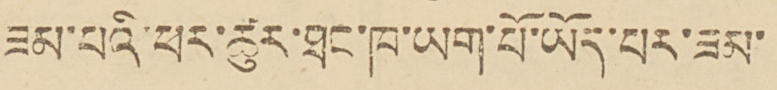ཟམ་པའི་ཕར་ཚུར་ཐང་ཁ་ཡག་པོ་ཡོད་པར་ཟམ་
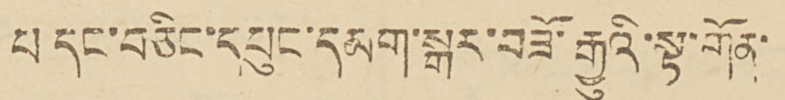པ དང་བཅིང་དཔུང་དམག་སྒར་བཟོ་རྒྱུའི་སྟ་གོན་
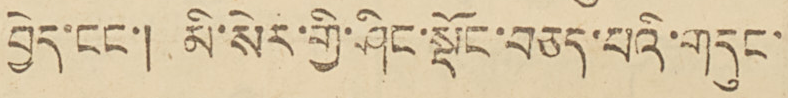བྱེད་ངང་། མི་སེར་གྱི་ཤིང་སྡོང་བཅད་པའི་གདུང་
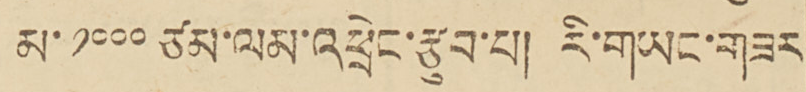མ་༡༠༠༠ཙམ་ལམ་འཕྲེང་རྩུབ་པ། རི་གྱང་གཟར
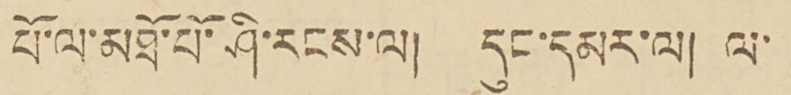པོ་ལ་མཐོ་པོ་ཤི་རངས་ལ། དུང་དམར་ལ། ལ་
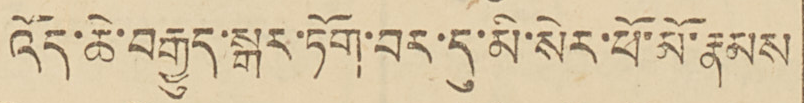འོད་ཆེ་བརྒྱུད་སྒར་ཏོག་བར་དུ་མི་སེར་ཕོ་མོ་རྣམས
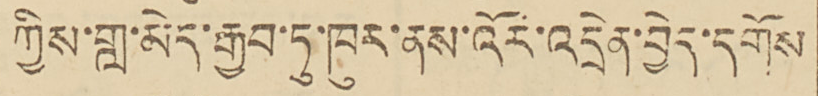ཀྱིས་གླ་མེད་རྒྱབ་ཏུ་ཁུར་ནས་འོར་འདྲེན་བྱེད་དགོས
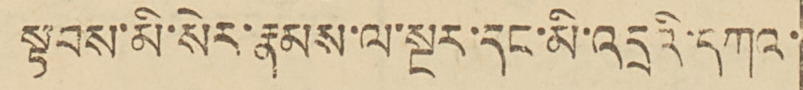སྟབས་མི་སེང་རྣམས་ལ་སྔར་དང་མི་འདྲའི་དཀའ་
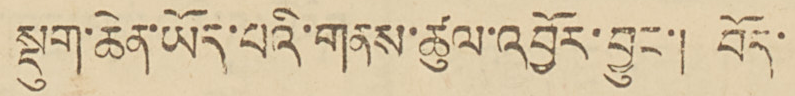སྡུག་ཆེན་ཡོད་པའི་གནས་ཚུལ་འབྱོར་བྱུང་། བོད་
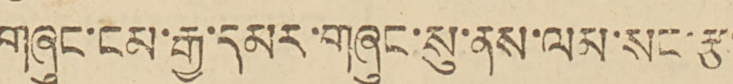གཞུང་ངམ་རྒྱ་དམར་གཞུང་སུ་ནས་ལམ་སང་རྩ་་
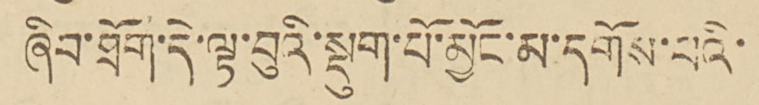ཞིབ་ཐོག་དེ་ལྟ་བུའི་སྡུག་པོ་མྱོང་མ་དགོས་པའི་
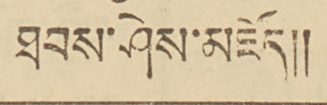ཐབས་ཤེས་མཛོད།།
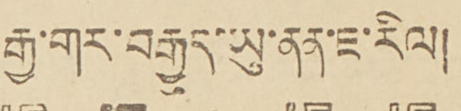རྒྱ་གར་བརྒྱུད་ཡུ་ནན་ཇ་རིལ།
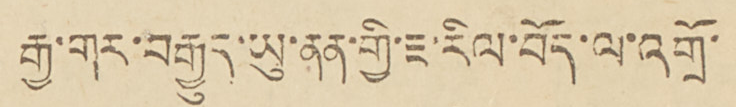རྒྱ་གར་བརྒྱུད་ཨུ་ནན་གྱི་ཇ་རིལ་བོད་ལ་འགྲོ་
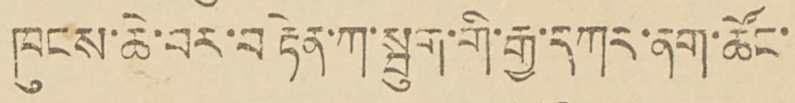ཁུངས་ཆེ་བར་བརྟེན་ཀ་སྤུག་གི་རྒྱ་དཀར་ནང་ཚོང་
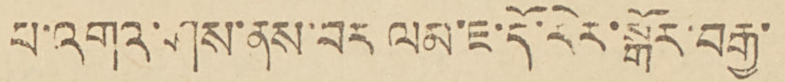པ་འགའ་ཤས་ནས་བར ལམ་ཇ་དོ་རེར་སྒོར་བརྒྱ་
